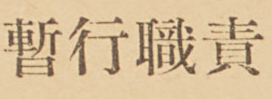暫行職責
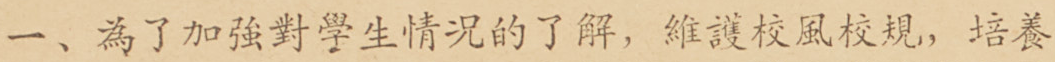一、爲了加強對學生情況的了解，維護校風校規，培養
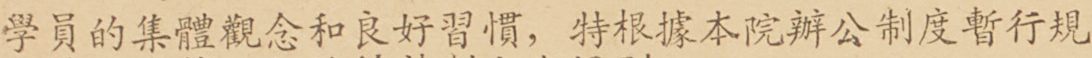學員的集體觀念和良好習慣，特根據本院辦公制度暫行規
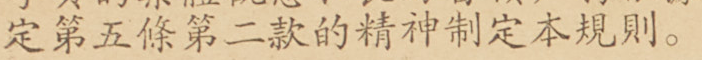定第五條第二款的精神制定本規則。
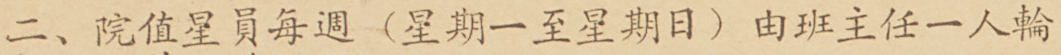二、院值星員每週（星期一至星期日）由班主任一人輪
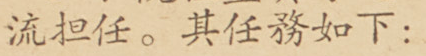流担任。其任務如下：
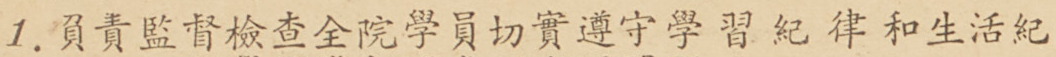1.負責監督檢查全院學員切實遵守學習紀律和生活紀
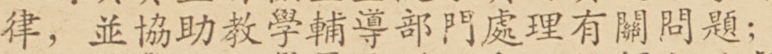律，並協助教學輔導部門處理有關問題；
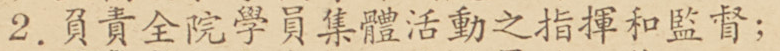2.負責全院學員集體活動之指揮和監督；
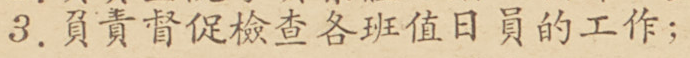3.負責督促檢查各班值日員的工作；
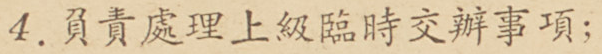4.負責處理上級臨時交辦事項；
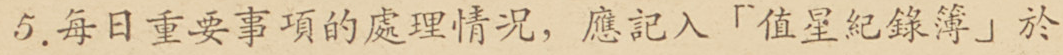5.每日重要事項的處理情況，應記入「值星紀錄簿」於
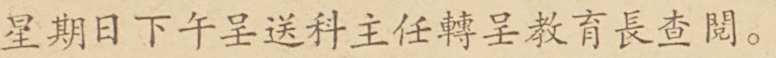星期日下午呈送科主任轉呈教育長查閱。
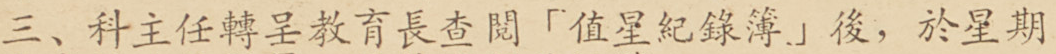三、科主任轉呈教育長查閱「值星紀錄簿」後，於星期
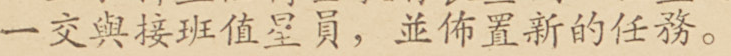一交與接班值星員，並佈置新的任務。
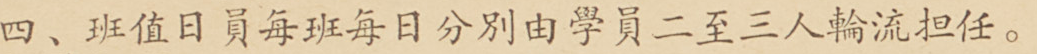四、班值日員每班每日分別由學員二至三人輪流担任。
